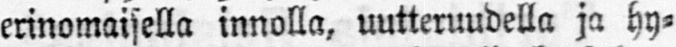erinomaisella innolla, uutteruudella ja hy-
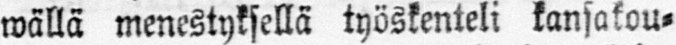wällä menestyksellä työskenteli kansakou-
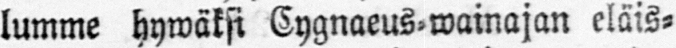lumme hywäksi Cygnaeus-wainajan eläis-
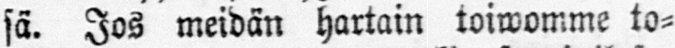sä. Jos meidän hartain toiwomme to-
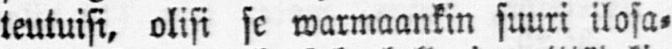teutuisi, olisi se warmaankin suuri ilosa-
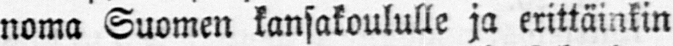noma Suomen kansakoululle ja erittäinkin
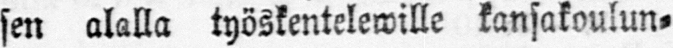sen alalla työskentelewille kansakoulun-
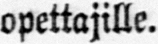opettajille.
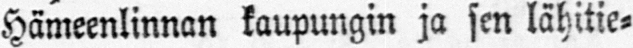Hämeenlinnan kaupungin ja sen lähitie-
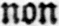non
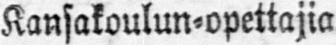Kansakoulun-opettajia.
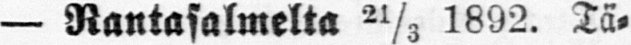—Rantasalmelta 21/3 1892. Tä-
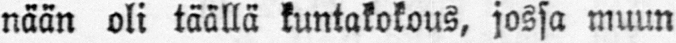nään oli täällä kuntakokous, jossa muun
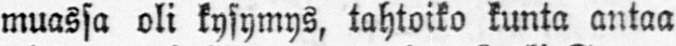muassa oli kysymys, tahtoiko kunta antaa
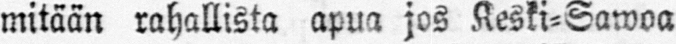mitään rahallista apua jos Koski-Sawoa
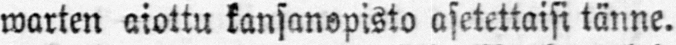warten aiottu kansanopisto asetettaisi tänne.
